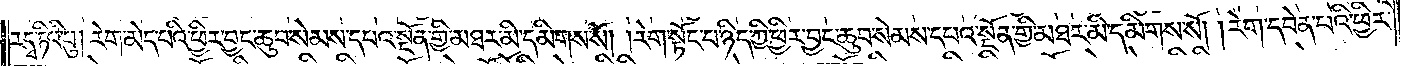རདྭ་ཏིའི་བུ། རེག་མེད་པའི་ཕྱིར་བྱང་ཆུབ་སེམས་དཔའ་སྔོན་གྱི་མཐར་མི་དམིགས་སོ། །རེག་སྟོང་པ་ཉིད་ཀྱི་ཕྱིར་བྱང་ཆུབ་སེམས་དཔའ་སྔོན་གྱི་མཐར་མི་དམིགས་སོ། །རེག་དབེན་པའི་ཕྱིར་
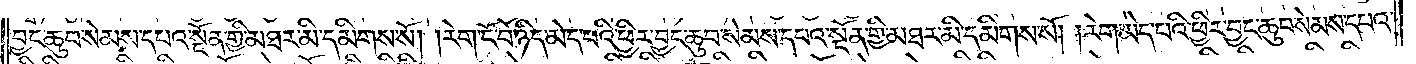བྱང་ཆུབ་སེམས་དཔའ་སྔོན་གྱི་མཐར་མི་དམིགས་སོ། །རེག་ངོ་བོ་ཉིད་མེད་པའི་ཕྱིར་བྱང་ཆུབ་སེམས་དཔའ་སྔོན་གྱི་མཐར་མི་དམིགས་སོ། །རེག་མེད་པའི་ཕྱིར་བྱང་ཆུབ་སེམས་དཔའ་
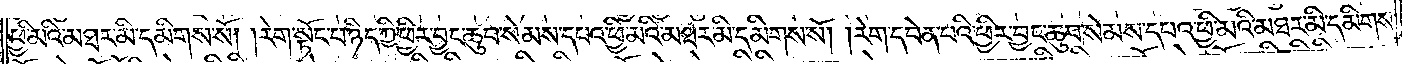ཕྱི་མའི་མཐར་མི་དམིགས་སོ། །རེག་སྟོང་པ་ཉིད་ཀྱི་ཕྱིར་བྱང་ཆུབ་སེམས་དཔའ་ཕྱི་མའི་མཐར་མི་དམིགས་སོ། །རེག་དབེན་པའི་ཕྱིར་བྱང་ཆུབ་སེམས་དཔའ་ཕྱི་མའི་མཐར་མི་དམིགས་
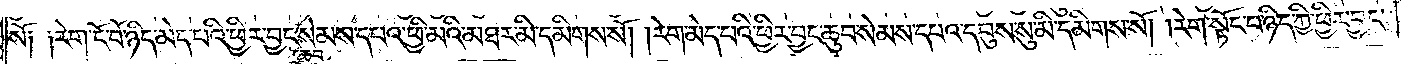སོ། །རེག་ངོ་བོ་ཉིད་མེད་པའི་ཕྱིར་བྱང་ཆུབ་སེམས་དཔའ་ཕྱི་མའི་མཐར་མི་དམིགས་སོ། །རེག་མེད་པའི་ཕྱིར་བྱང་ཆུབ་སེམས་དཔའ་དབུས་སུ་མི་དམིགས་སོ། །རེག་སྟོང་པ་ཉིད་ཀྱི་ཕྱིར་བྱང་
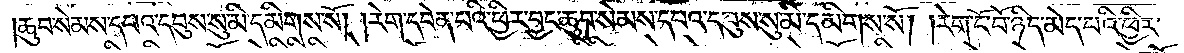ཆུབ་སེམས་དཔའ་དབུས་སུ་མི་དམིགས་སོ། །རེག་དབེན་པའི་ཕྱིར་བྱང་ཆུབ་སེམས་དཔའ་དབུས་སུ་མི་དམིགས་སོ། །རེག་ངོ་བོ་ཉིད་མེད་པའི་ཕྱིར་
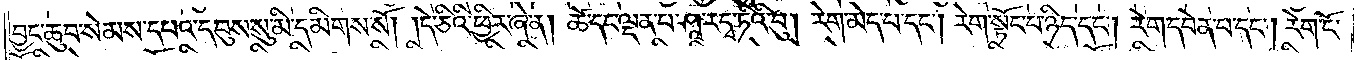བྱང་ཆུབ་སེམས་དཔའ་དབུས་སུ་མི་དམིགས་སོ། །དེ་ཅིའི་ཕྱིར་ཞེ་ན། ཚེ་དང་ལྡན་པ་ཤཱ་རདྭ་ཏིའི་བུ། རེག་མེད་པ་དང༌། རེག་སྟོང་པ་ཉིད་དང༌། རེག་དབེན་པ་དང༌། རེག་ངོ་
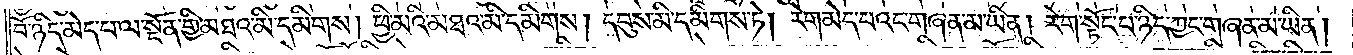བོ་ཉིད་མེད་པ་ལ་སྔོན་གྱི་མཐའ་མི་དམིགས། ཕྱི་མའི་མཐའ་མི་དམིགས། དབུས་མི་དམིགས་ཏེ། རེག་མེད་པའང་གཞན་མ་ཡིན། རེག་སྟོང་པ་ཉིད་ཀྱང་གཞན་མ་ཡིན།
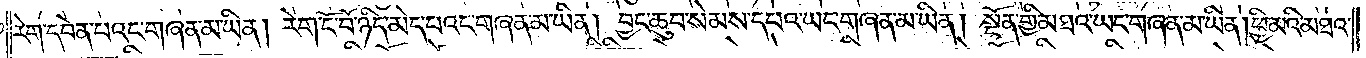རེག་དབེན་པའང་གཞན་མ་ཡིན། རེག་ངོ་བོ་ཉིད་མེད་པའང་གཞན་མ་ཡིན། བྱང་ཆུབ་སེམས་དཔའ་ཡང་གཞན་མ་ཡིན། སྔོན་གྱི་མཐའ་ཡང་གཞན་མ་ཡིན། ཕྱི་མའི་མཐའ་
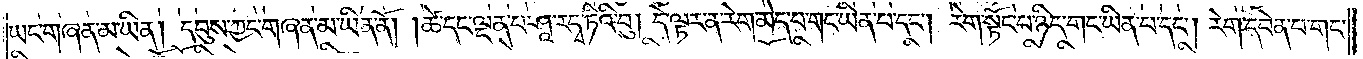ཡང་གཞན་མ་ཡིན། དབུས་ཀྱང་གཞན་མ་ཡིན་ནོ། །ཚེ་དང་ལྡན་པ་ཤཱ་རདྭ་ཏིའི་བུ། དེ་ལྟར་ན་རེག་མེད་པ་གང་ཡིན་པ་དང༌། རེག་སྟོང་པ་ཉིད་གང་ཡིན་པ་དང༌། རེག་དབེན་པ་གང་
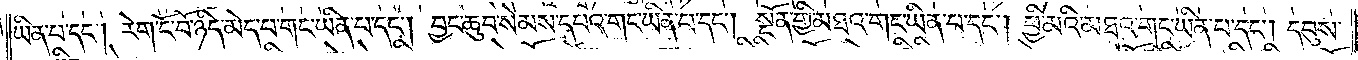ཡིན་པ་དང༌། རེག་ངོ་བོ་ཉིད་མེད་པ་གང་ཡིན་པ་དང༌། བྱང་ཆུབ་སེམས་དཔའ་གང་ཡིན་པ་དང༌། སྔོན་གྱི་མཐའ་གང་ཡིན་པ་དང༌། ཕྱི་མའི་མཐའ་གང་ཡིན་པ་དང༌། དབུས་
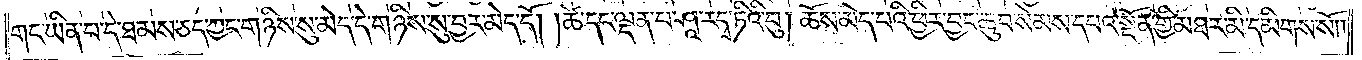གང་ཡིན་པ་དེ་ཐམས་ཅད་ཀྱང་གཉིས་སུ་མེད་དེ་གཉིས་སུ་བྱར་མེད་དོ། །ཚེ་དང་ལྡན་པ་ཤཱ་རདྭ་ཏིའི་བུ། ཆོས་མེད་པའི་ཕྱིར་བྱང་ཆུབ་སེམས་དཔའ་སྔོན་གྱི་མཐར་མི་དམིགས་སོ། །
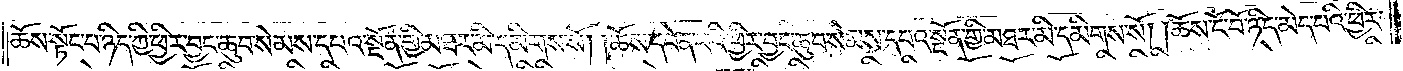ཆོས་སྟོང་པ་ཉིད་ཀྱི་ཕྱིར་བྱང་ཆུབ་སེམས་དཔའ་སྔོན་གྱི་མཐར་མི་དམིགས་སོ། །ཆོས་དབེན་པའི་ཕྱིར་བྱང་ཆུབ་སེམས་དཔའ་སྔོན་གྱི་མཐར་མི་དམིགས་སོ། །ཆོས་ངོ་བོ་ཉིད་མེད་པའི་ཕྱིར་
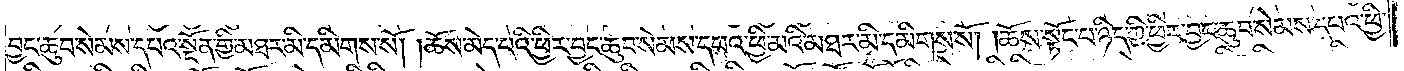བྱང་ཆུབ་སེམས་དཔའ་སྔོན་གྱི་མཐར་མི་དམིགས་སོ། །ཆོས་མེད་པའི་ཕྱིར་བྱང་ཆུབ་སེམས་དཔའ་ཕྱི་མའི་མཐར་མི་དམིགས་སོ། །ཆོས་སྟོང་པ་ཉིད་ཀྱི་ཕྱིར་བྱང་ཆུབ་སེམས་དཔའ་ཕྱི་
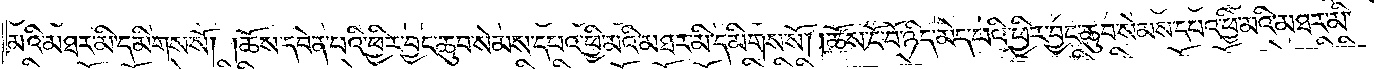མའི་མཐར་མི་དམིགས་སོ། །ཆོས་དབེན་པའི་ཕྱིར་བྱང་ཆུབ་སེམས་དཔའ་ཕྱི་མའི་མཐར་མི་དམིགས་སོ། །ཆོས་ངོ་བོ་ཉིད་མེད་པའི་ཕྱིར་བྱང་ཆུབ་སེམས་དཔའ་ཕྱི་མའི་མཐར་མི་
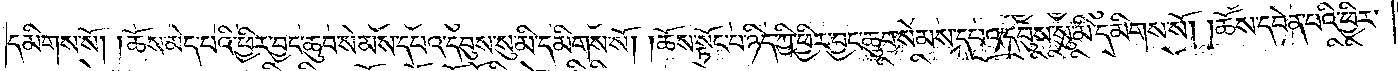དམིགས་སོ། །ཆོས་མེད་པའི་ཕྱིར་བྱང་ཆུབ་སེམས་དཔའ་དབུས་སུ་མི་དམིགས་སོ། །ཆོས་སྟོང་པ་ཉིད་ཀྱི་ཕྱིར་བྱང་ཆུབ་སེམས་དཔའ་དབུས་སུ་མི་དམིགས་སོ། །ཆོས་དབེན་པའི་ཕྱིར་
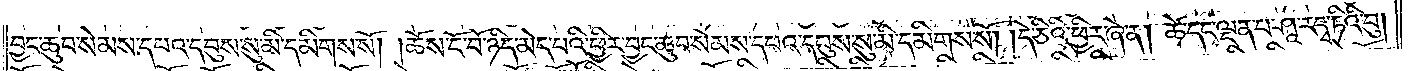བྱང་ཆུབ་སེམས་དཔའ་དབུས་སུ་མི་དམིགས་སོ། །ཆོས་ངོ་བོ་ཉིད་མེད་པའི་ཕྱིར་བྱང་ཆུབ་སེམས་དཔའ་དབུས་སུ་མི་དམིགས་སོ། །དེ་ཅིའི་ཕྱིར་ཞེ་ན། ཚེ་དང་ལྡན་པ་ཤཱ་རདྭ་ཏིའི་བུ།
